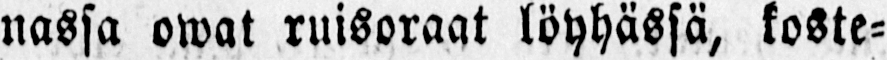nassa owat ruisoraat löyhässä, koste-
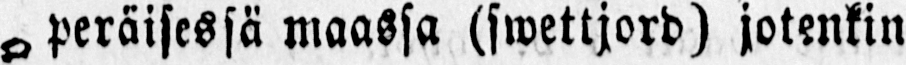a peräisessä maassa (swettjord) jotenkin
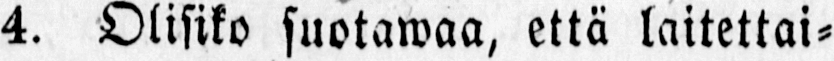4. Olisiko suotawaa, että laitettai-
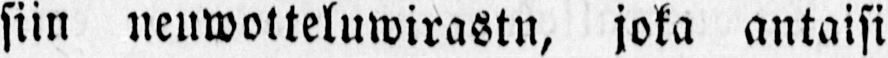siin neuwotteluwirastn, joka antaisi
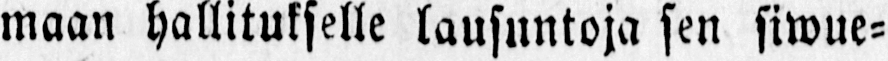maan hallitukselle lausuntoja sen siwue-
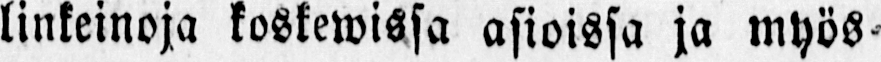linkeinoja koskewissa asioissa ja myös-
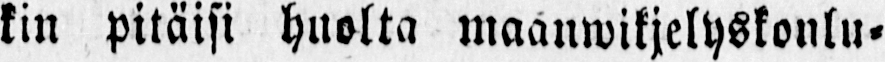kin pitäisi huolta maanwikjelyskoulu-
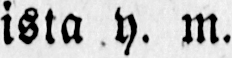ista y. m.
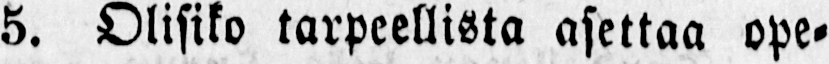5. Olisiko tarpeellista asettaa ope-
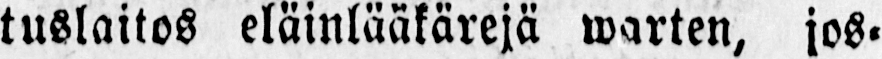tuslaitos eläinlääkärejä warten, jos-
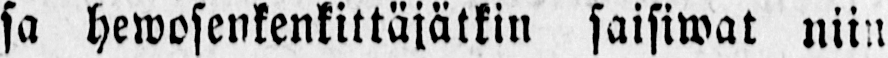sa hewosenkenkittäjätkin saisiwat niin
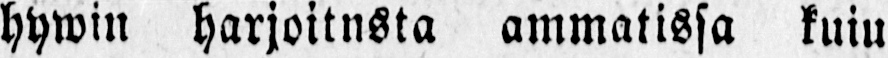hywin harjoitusta ammatissa kuiu
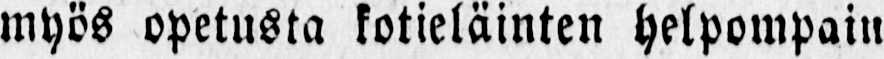myös opetusta kotieläinten helpompani
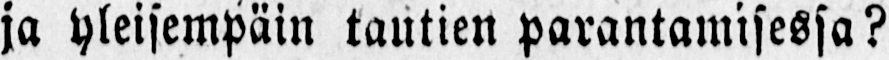ja yleisempäin tautien parantamisessa?
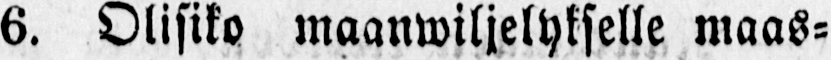6. Olisiko maanwiljelykselle maas-
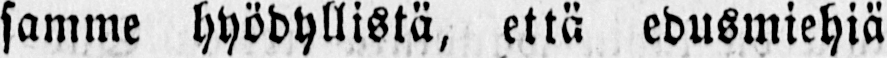samme hyödyllistä, että edusmiehiä
